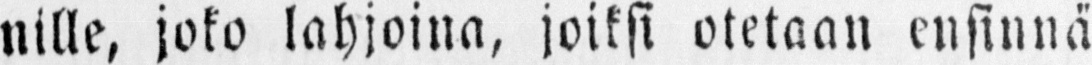nille, joko lahjoina, joiksi otetaan ensinnä
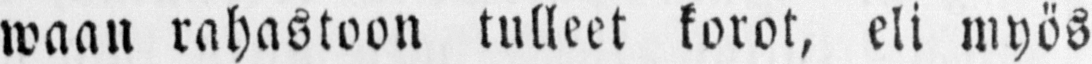waan rahastoon tulleet korot, eli myös
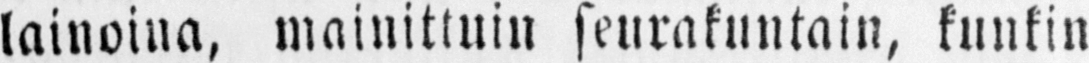lainoina, mainittuin seurakuntain, kunkin
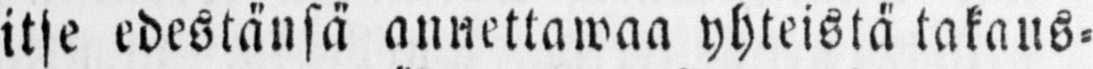itse edestänsä annettawaa yhteistä takaus-
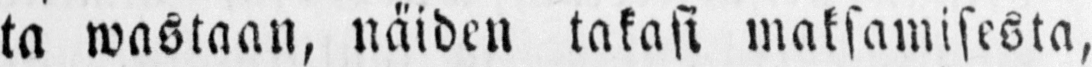ta wastaan, näiden takasi maksamisesta,
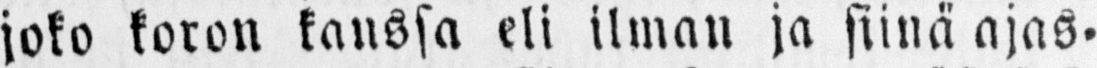joko koron kanssa eli ilman ja siinä ajas-
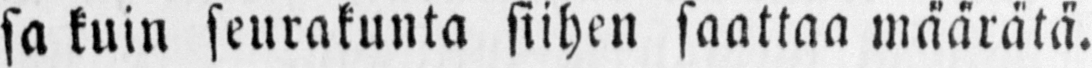sa kuin seurakunta siihen saattaa määrätä.
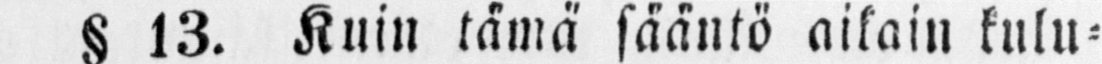§ 13. Kuin tämä sääntö aikain kulu-
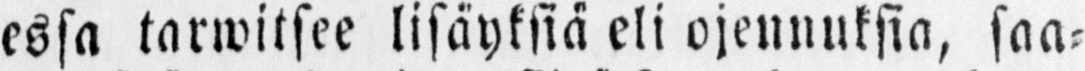essa tarwitsee lisäyksiä eli ojennuksia, saa-
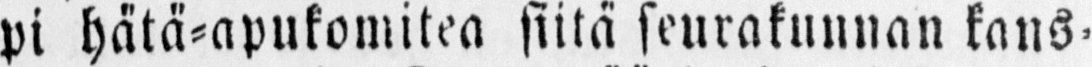pi hätä-apukomitea siitä seurakunnan kans-
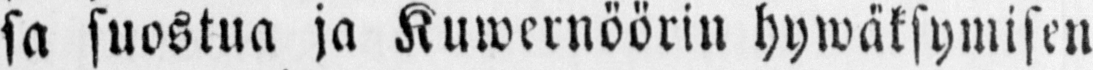sa suostua ja Kuwernöörin hywäksymisen
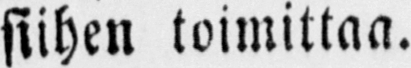siihen toimittaa.
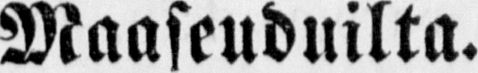Maaseuduilta.
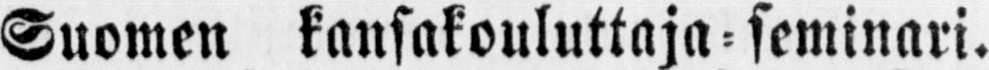Suomen kansakouluttaja - seminari.
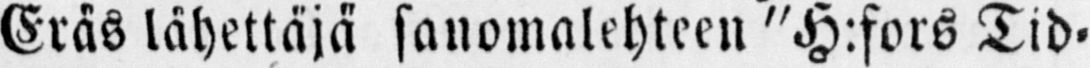Eräs lähettäjä sanomalehteen "H:fors Tid-
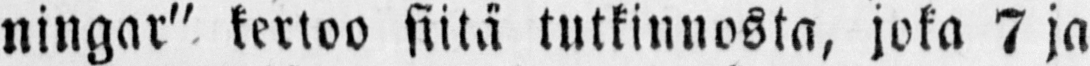ningar" kertoo siitä tutkinnosta, joka 7 ja
